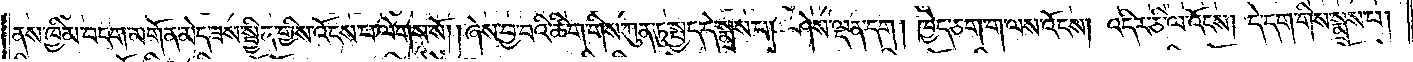ནས་ཁྱིམ་བདག་མགོན་མེད་ཟས་སྦྱིན་གྱིས་འོངས་པ་ལེགས་སོ། །ཞེས་བྱ་བའི་ཚིག་གིས་ཀུན་ཏུ་སྤྱད་དེ་སྨྲས་པ། ཤེས་ལྡན་དག །ཁྱེད་ཅག་གི་ལས་འོངས། འདིར་ཅི་ལ་འོངས། དེ་དག་གིས་སྨྲས་པ།
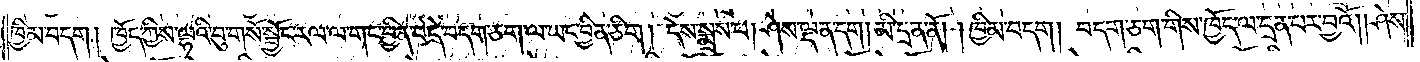ཁྱིམ་བདག །ཁྱོད་ཀྱིས་ལྷའི་བུ་གསོ་སྦྱོང་རལ་ལ་གང་བྱིན་པ་དེ་བདག་ཅག་ལ་ཡང་བྱིན་ཅིག །དེས་སྨྲས་པ། ཤེས་ལྡན་དག །མི་དྲན་ནོ། །ཁྱིམ་བདག །བདག་ཅག་གིས་ཁྱོད་ལ་དྲན་པར་བྱའོ། །ཤེས་
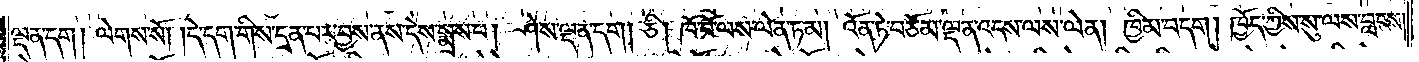ལྡན་དག། ལེགས་སོ། །དེ་དག་གིས་དྲན་པར་བྱས་ནས་དེས་སྨྲས་པ། ཤེས་ལྡན་དག །ཅི། ཁོ་བོ་ལས་ལེན་ཏམ། འོན་ཏེ་བཅོམ་ལྡན་འདས་ལས་ལེན། ཁྱིམ་བདག །ཁྱོད་ཀྱིས་སུ་ལས་བླངས།
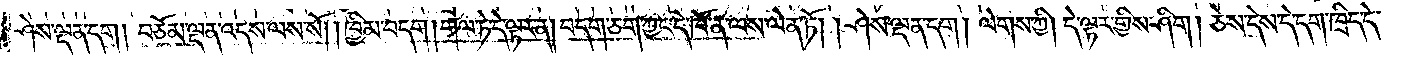ཤེས་ལྡན་དག །བཅོམ་ལྡན་འདས་ལས་སོ། །ཁྱིམ་བདག །གལ་ཏེ་དེ་ལྟར་ན། བདག་ཅག་ཀྱང་དེ་ཁོ་ན་ལས་ལེན་ཏོ། །ཤེས་ལྡན་དག །ལེགས་ཀྱི། དེ་ལྟར་གྱིས་ཤིག །ཅེས་དེས་དེ་དག་ཁྲིད་དེ་
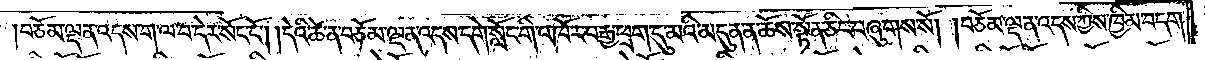།བཅོམ་ལྡན་འདས་ག་ལ་བ་དེར་སོང་ངོ༌། །དེའི་ཚེ་ན་བཅོམ་ལྡན་འདས་དགེ་སློང་གི་འཁོར་བརྒྱ་ཕྲག་དུ་མའི་མདུན་ན་ཆོས་སྟོན་ཅིང་བཞུགས་སོ། །བཅོམ་ལྡན་འདས་ཀྱིས་ཁྱིམ་བདག་
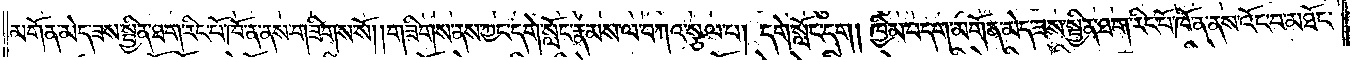མགོན་མེད་ཟས་སྦྱིན་ཐག་རིང་པོ་ཁོ་ན་ནས་གཟིགས་སོ། །གཟིགས་ནས་ཀྱང་དགེ་སློང་རྣམས་ལ་བཀའ་སྩལ་པ། དགེ་སློང་དག །ཁྱིམ་བདག་མགོན་མེད་ཟས་སྦྱིན་ཐག་རིང་པོ་ཁོ་ན་ནས་འོང་བ་མཐོང་
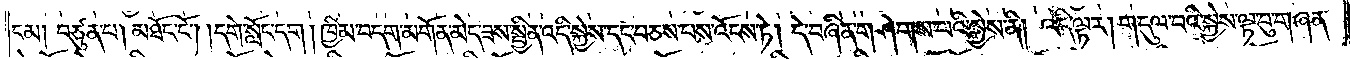ངམ། བཙུན་པ། མཐོང་ངོ༌། །དགེ་སློང་དག །ཁྱིམ་བདག་མགོན་མེད་ཟས་སྦྱིན་འདི་སྐྱེས་དང་བཅས་པས་འོངས་ཏེ། དེ་བཞིན་གཤེགས་པའི་སྐྱེས་ནི། འདི་ལྟར། གདུལ་བའི་སྐྱེས་ལྟ་བུ་གཞན་
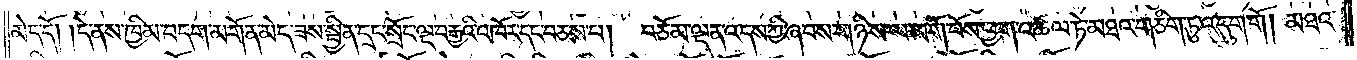མེད་དོ། །དེ་ནས་ཁྱིམ་བདག་མགོན་མེད་ཟས་སྦྱིན་དྲང་སྲོང་ལྔ་བརྒྱའི་འཁོར་དང་བཅས་པ། བཅོམ་ལྡན་འདས་ཀྱི་ཞབས་གཉིས་ལ་མགོ་བོས་ཕྱག་འཚལ་ཏེ་མཐའ་གཅིག་ཏུ་འདུག་གོ །མཐའ་
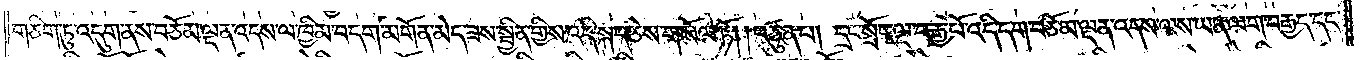གཅིག་ཏུ་འདུག་ནས་བཅོམ་ལྡན་འདས་ལ་ཁྱིམ་བདག་མགོན་མེད་ཟས་སྦྱིན་གྱིས་འདི་སྐད་ཅེས་གསོལ་ཏོ། །བཙུན་པ། དྲང་སྲོང་ལྔ་བརྒྱ་པོ་འདི་དག་བཅོམ་ལྡན་འདས་ལས་ཡན་ལག་བརྒྱད་དང་
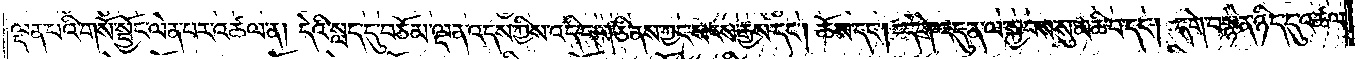ལྡན་པའི་གསོ་སྦྱོང་ལེན་པར་འཚལ་ན། དེའི་སླད་དུ་བཅོམ་ལྡན་འདས་ཀྱིས་འདི་དག་ཅི་ནས་ཀྱང་སངས་རྒྱས་དང༌། ཆོས་དང༌། དགེ་འདུན་ལ་སྐྱབས་སུ་མཆི་བ་དང༌། དགེ་བསྙེན་ཉིད་དུ་འཚལ་
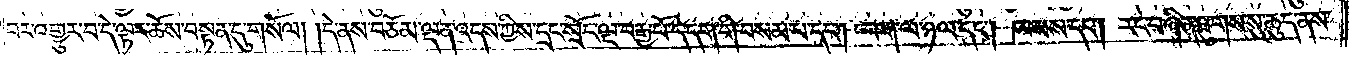བར་འགྱུར་བ་དེ་ལྟར་ཆོས་བསྟན་དུ་གསོལ། །དེ་ནས་བཅོམ་ལྡན་འདས་ཀྱིས་དྲང་སྲོང་ལྔ་བརྒྱ་པོ་དེ་དག་གིས་བསམ་པ་དང༌། བག་ལ་ཉལ་དང༌། ཁམས་དང༌། རང་བཞིན་ཐུགས་སུ་ཆུད་ནས་
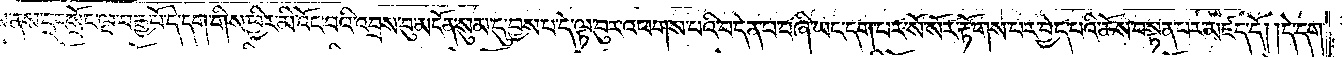གང་ཐོས་ནས་དྲང་སྲོང་ལྔ་བརྒྱ་པོ་དེ་དག་གིས་ཕྱིར་མི་འོང་བའི་འབྲས་བུ་མངོན་སུམ་དུ་བྱས་པ་དེ་ལྟ་བུར་འཕགས་པའི་བདེན་པ་བཞི་ཡང་དག་པར་སོ་སོར་རྟོགས་པར་བྱེད་པའི་ཆོས་བསྟན་པར་མཛད་དོ། །དེ་དག་
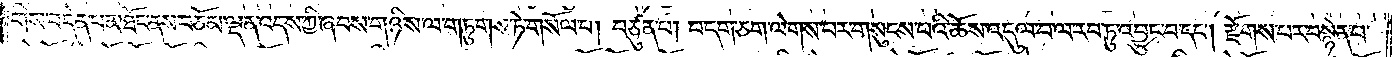གིས་བདེན་པ་མཐོང་ནས་བཅོམ་ལྡན་འདས་ཀྱི་ཞབས་གཉིས་ལ་གཏུགས་ཏེ་གསོལ་བ། བཙུན་པ། བདག་ཅག་ལེགས་པར་གསུངས་པའི་ཆོས་འདུལ་བ་ལ་རབ་ཏུ་འབྱུང་བ་དང༌། རྫོགས་པར་བསྙེན་པ་
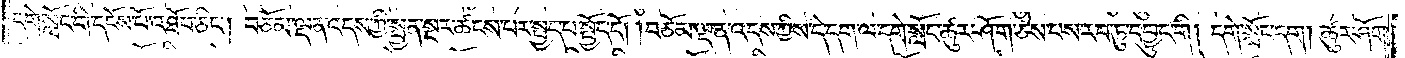དགེ་སློང་གི་དངོས་པོ་འཐོབ་ཅིང༌། བཅོམ་ལྡན་འདས་ཀྱི་སྤྱན་སྔར་ཚངས་པར་སྤྱད་པ་སྤྱོད་དོ། །བཅོམ་ལྡན་འདས་ཀྱིས་དེ་དག་ལ་དགེ་སློང་ཚུར་ཤོག་ཅེས་པས་རབ་ཏུ་དབྱུང་གི །དགེ་སློང་དག །ཚུར་ཤོག་
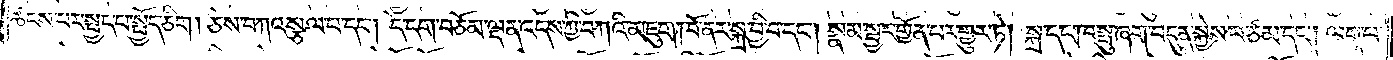ཚངས་པར་སྤྱད་པ་སྤྱོད་ཅིག །ཅེས་བཀའ་སྩལ་པ་དང༌། དེ་དག་བཅོམ་ལྡན་འདས་ཀྱི་བཀའི་འཇུག་ཁོ་ནར་སྐྲ་བྱི་བ་དང༌། སྣམ་སྦྱར་གྱོན་པར་གྱུར་ཏེ། སྐྲ་དང་ཁ་སྤུ་ཞག་བདུན་སྐྱེས་པ་ཙམ་དང༌། ལག་པ་
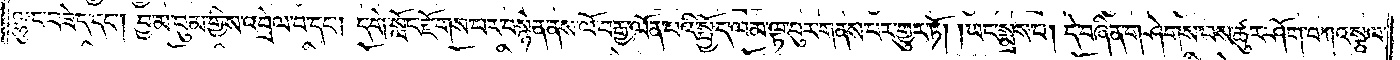ལྷུང་བཟེད་དང༌། བྱ་བ་བུམ་གྱིས་འབྲེལ་བ་དང༌། དགེ་སློང་རྫོགས་པར་བསྙེན་ནས་ལོ་བརྒྱ་ལོན་པའི་སྤྱོད་ལམ་ལྟ་བུར་གནས་པར་གྱུར་ཏོ། །ཡང་སྨྲས་པ། དེ་བཞིན་གཤེགས་པས་ཚུར་ཤོག་བཀའ་སྩལ་
